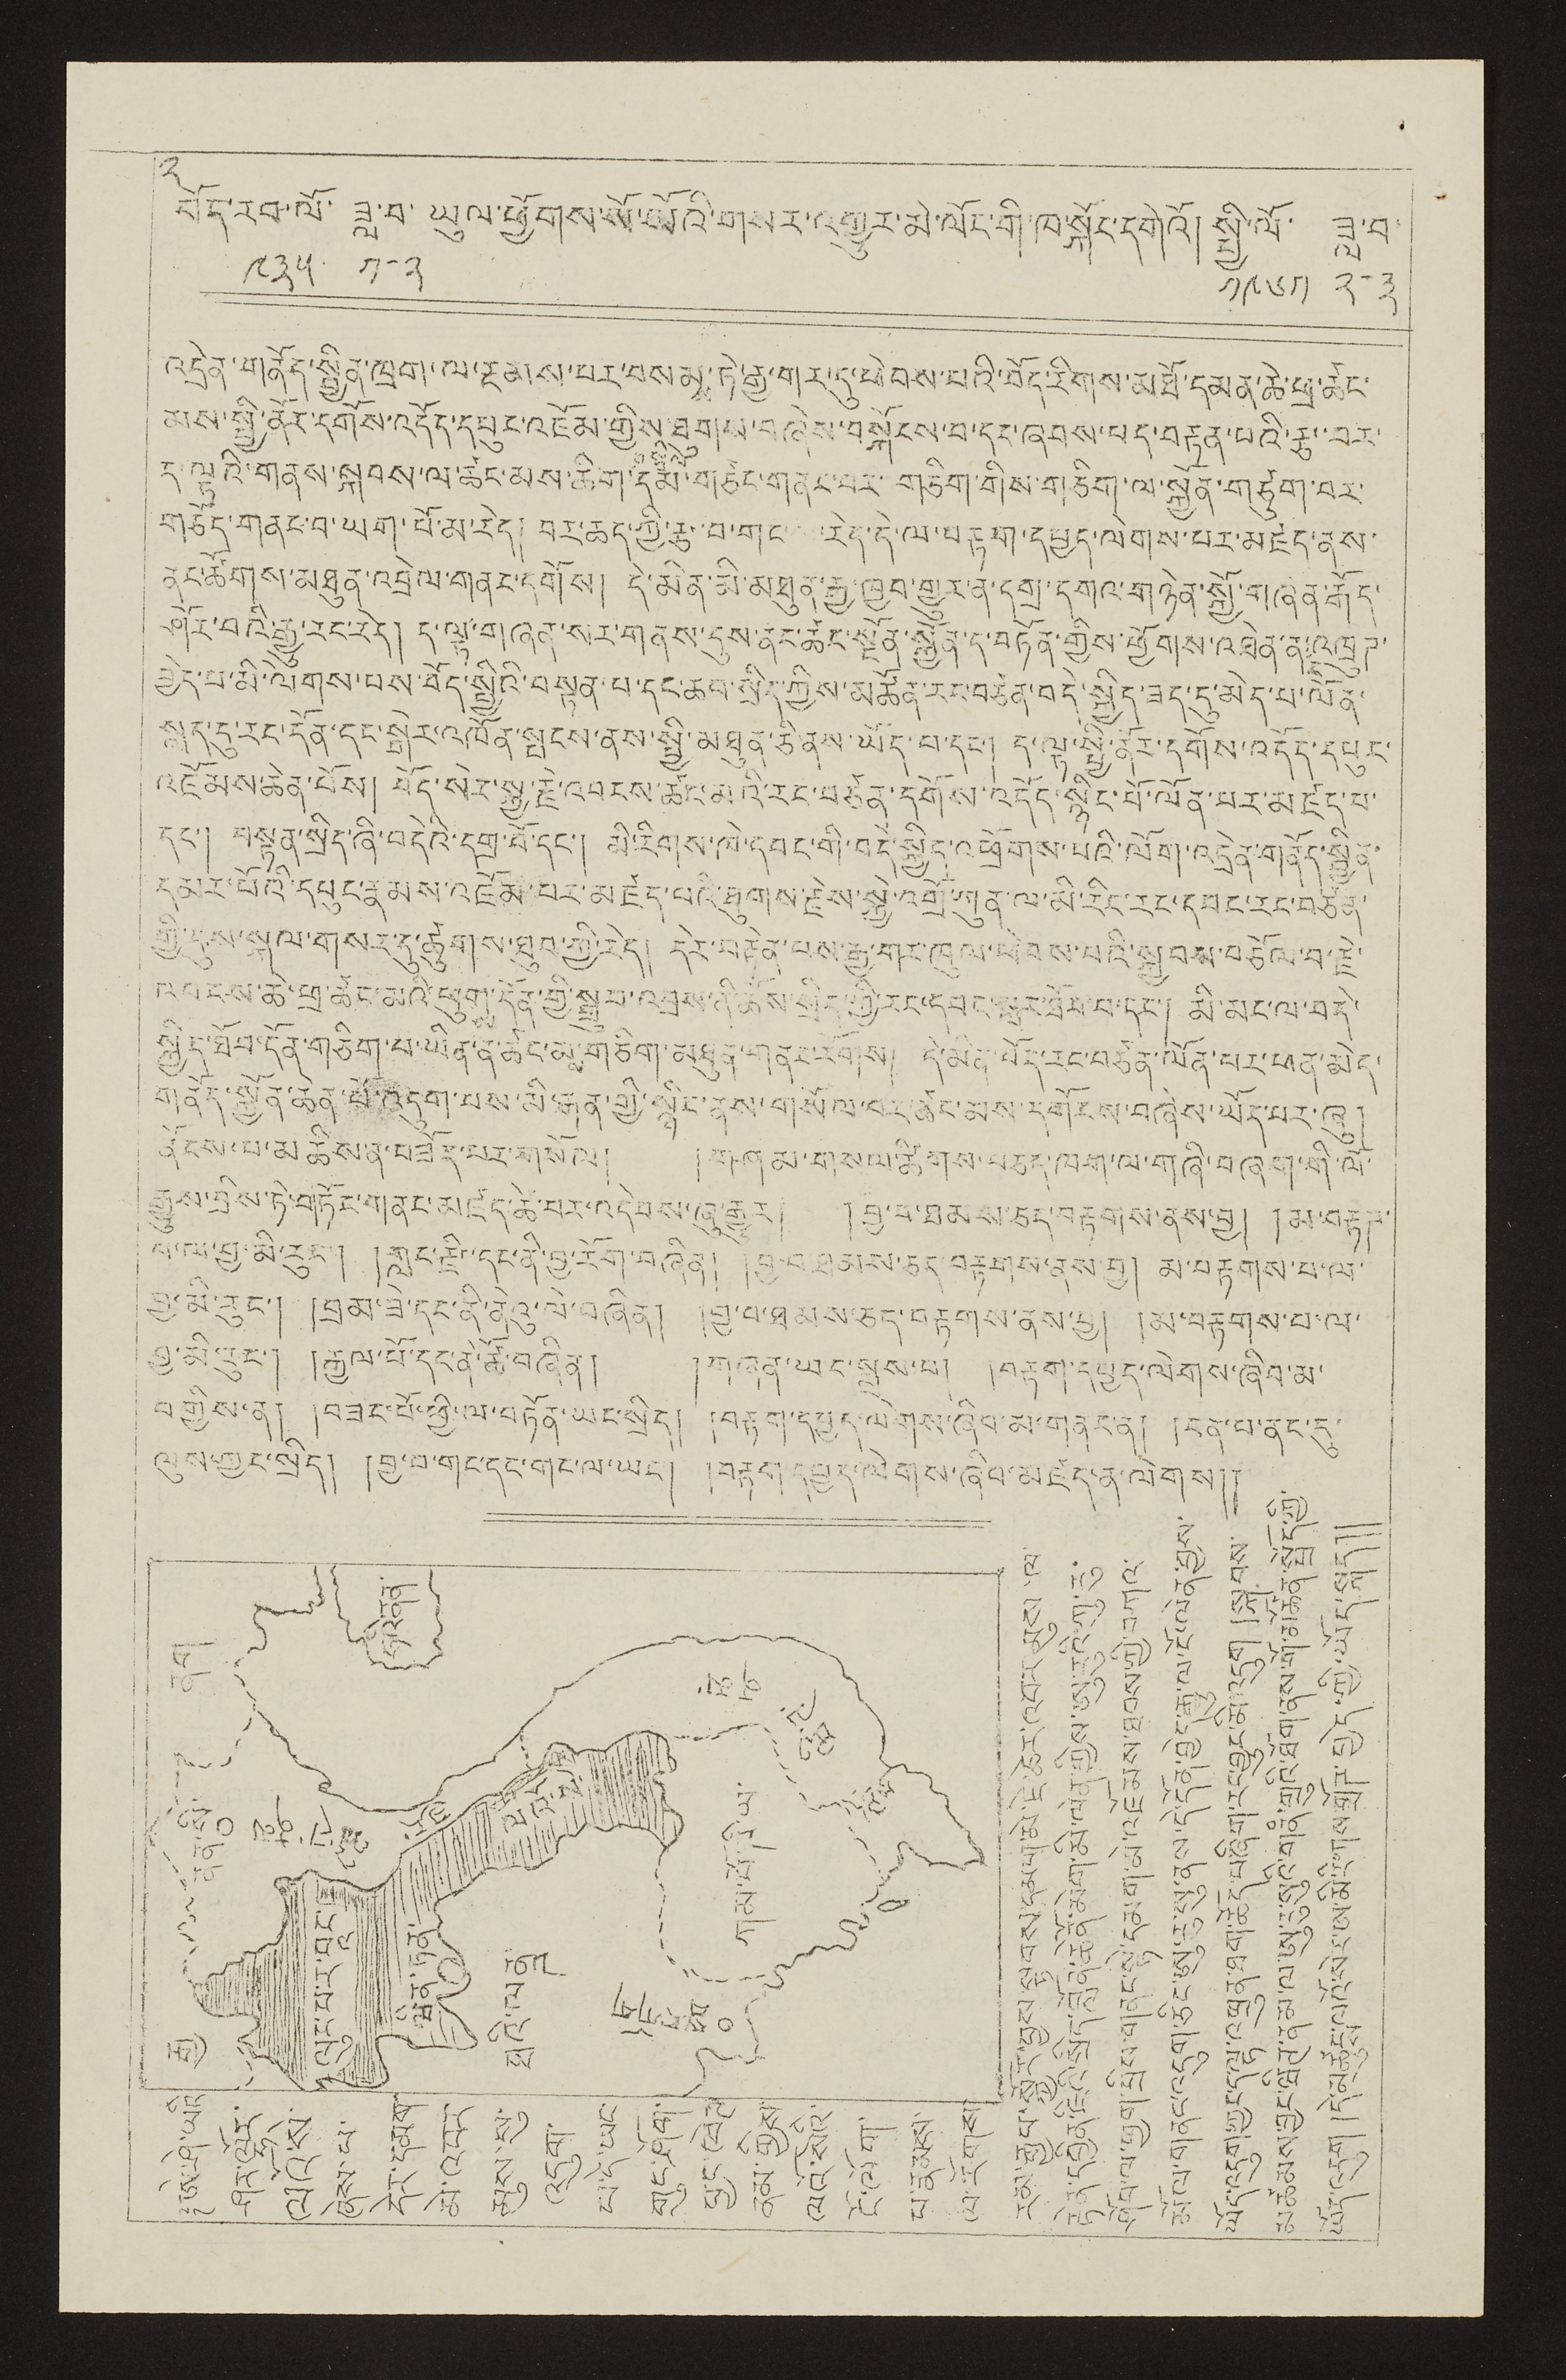༢
བོད་རབ་ལོ་
༩༣༥
ཟླ་བ་
༡-༢
ཡུལ་ཕྱོགས་སོ་སོའི་གསར་འགྱུར་མེ་ལོང་གི་ཁ་སྐོང་དགེའོ། སྤྱི་ལོ་
༡༩༦༡
ཟླ་བ་
༢-༣
འདྲེན་གནོད་སྦྱིན་ཁྲག་ལ་རྔམས་པར་བསམས་ཏེ་རྒྱ་གར་དུ་ཕེབས་པའི་བོད་རིགས་མཐོ་དམན་ཆེ་ཕྲ་ཚང་
མས་སྤྱི་ནོར་དགོས་འདོད་དཔུང་འཇོམ་གྱིས་ཐུགས་བཞེས་བསྐོངས་བ་དང་ཞབས་པད་བརྟན་པའི་རྩ་བར་
ད་ལྟའི་གནས་སྐབས་ལ་ཚང་མས་ཆིག་
བསྒྲིལ་
དམ་གཙང་གནང་བར་གཅིག་གིས་གཅིག་ལ་སྐྱོན་གཙུག་བར་
གཙོད་གནང་བ་ཡག་པོ་མ་རེད། བར་ཆད་ཀྱི་རྩ་བ་གང་ རེད་དེ་ལ་བརྟག་དཔྱད་ལེགས་པར་མཛད་ནས་
ནང་ཚོགས་མཐུན་འབྲེལ་གནང་དགོས། དེ་མིན་མི་མཐུན་རྒྱ་ཁྱབ་གྱུར་ན་དགྲ་དགའ་གཉེན་སྐྱོ་གཞན་རྒོད་
ཤོར་བའི་རྒྱུ་རང་རེད། ད་ལྟ་གཞན་སར་གནས་དུས་ནང་ཚང་སྔོན་སྐྱོན་ད་བཏོན་གྱིས་ཕྱོགས་འཐེན་ན་འཁྲུཊ་
བྱེད་པ་མི་ལེགས་པས་བོད་སྤྱིའི་བསྟན་པ་དང་ཆབ་སྲིད་ཀྱིས་མཚོན་རང་བཙན་བདེ་སྐྱིད་ཟད་དུ་མེད་པ་ལོན་
སླད་དུ་རང་དོན་དང་སྒེར་འཁོན་སྤངས་ནས་སྤྱི་མཐུན་ཅི་ནས་ཡོད་པ་དང་། ད་ལྟ་སྤྱི་ནོར་དགོས་འདོད་དཔུང་
འཇོམས་ཆེན་པོས། བོད་སེར་སྐྱ་རྗེ་འབངས་ཚང་མའི་རང་བཙན་དགོས་འདོད་སྙིང་པོ་ལོན་པར་མཛད་པ་
དང་། བསྟན་སྲིད་ཞི་བདེའི་དགྲ་པོ་དང་། མི་རིགས་ཁེ་དབང་གི་བདེ་སྐྱིད་འཕྲོགས་པའི་ལོག་འདྲེན་གནོད་སྦྱིན་
དམར་པོའི་དཔུང་རྣམས་འཇོམ་བར་མཛད་པའི་ཐུགས་རྗེས་སྐྱེ་འགྲོ་ཀུན་ལ་མི་རིང་དབང་རང་བཙན་
གྱི་དུས་སྐལ་གསར་དུ་ཚུགས་ཐུབ་ཀྱི་རེད། དེར་བརྟེན་པས་རྒྱ་གར་ཁུལ་ཕེབས་པའི་སྐྱབས་བཅོལ་བ་རྗེ་
འབངས་ཆེན་ཕྲ་ཚང་མའི་ཕྲུགས་དོན་གྱི་སྦྲུབ་འབྲས་ནི་ཆོས་སྲིད་གྱི་རང་དབང་སླར་ཐོབ་པ་དང་། མི་མང་ལ་བདེ་
སྐྱིད་ཐོབ་དོན་གཅིག་པ་ཡིན་ན་ཚང་མས་གཅིག་མཐུན་གནང་རོགས། དེ་མིན་བོད་རང་བཙན་ལོན་པར་ཕན་མེད་
གནོད་སྐྱོན་ཆེན་པོ་འདུག་པས་མི་རྒན་གྱི་སྙིང་ནས་གསོལ་བར་ཚང་མས་དགོངས་བཞེས་ཡོད་པར་ཞུ།
ནོངས་པ་མཆིས་ན་བཟོད་པར་གསོལ། །གཤམ་གསལ་ཚིགས་བཅད་ལག་ལ་གཞི་བཞག་གི་ལོ་
རྒྱུས་བྲིས་ཏེ་གཏོང་གནང་མཛད་ཚེ་བར་འདེབས་ཞུ་རྒྱུར། །བྱ་བ་ཐམས་ཅད་བརྟགས་ནས་བྱ། །མ་བརྟཊ་
པ་ལ་བྱ་མི་རུང་། །གླང་རྫིང་དང་ནི་བྱ་རོག་བཞིན། །བྱ་བ་ཐམས་ཅད་བརྟགས་ནས་བྱ། །མ་བརྟགས་པ་ལ་
བྱ་མི་རུང་། །བྲམ་ཟེ་དང་ནི་ནེའུ་ལེ་བཞིན། །བྱ་བ་ཐམས་ཅད་བརྟགས་ན་བྱ། མ་བརྟགས་པ་ལ་
བྱ་མི་རུང་། །རྒྱལ་པོ་དང་ནེ་ཚོ་བཞིན། །གཞན་ཡང་སླས་པ། །བརྟག་དཔྱད་ལེགས་ཞིབ་མ་
བགྱིས་ན། །བཟང་པོ་ཕྱི་ལ་བཏོན་ཡང་སྲིད། །བརྟག་དཔྱད་ལེགས་ཞིབ་མ་གནང་ན། །ངན་པ་ནང་དུ་
ལུས་གྱང་སྲིད། །བྱ་བ་གང་དང་གང་ལ་ཡང་། །བརྟག་དཔྱད་ལེགས་ཞིབ་མཛད་ན་ལེགས།།
ཧའི་ནན་
རྒྱ་ནག་
ལྷོ་ཝི་ཊ་ནམ་
ལའོ་སེ་
ཀམ་པོ་ཊི་ཡ་
བྱང་ཝི་ཊ་ནམ་
ནན་སི་
ལུང་པ་ར་བཱང་
ཝིན་ཏན་
ཐའི་ལནྜ་
སྦང་ཀོག་
༈ ཨེ་ཤེ་ཡའི་
ཤར་ལྷོར་
ལའོ་སེ་
ཞེས་པ་
དེར་དམག་
མེ་འབར་
མུས་སུ་
འདུག་
པ་དེ་ཡང་
གུང་ཤོག་
བྱང་ཝེཊ་
ནམ་གྱིས་
ལའོ་སེའི་
ངོ་ལོག་
པ་རྣམས་
ལ་རོགས་
རམ་རྒྱཔ་སྐྱོར་བྱས་སྟབས་དམག་མེ་ཇེ་ཆེར་འབར་མུས་ལ་
རྟེན་དབྱིན་ཇིའི་སྲིད་བློན་ཆེནོ་མེག་མི་ལེན་གྱིས་ཨུ་རུའི་ཀུ་རུ་
ཤོབ་ལ་ཕྱག་བྲིས་གནང་སྟེ་དམག་མེ་འཇོམས་ཐབས་ཀྱི་བཀའ་
མོལ་གནང་འདུག་ཅིང་ཨུ་རུ་སུ་ནས་དེ་དོན་བྱེད་རྒྱུ་ལ་ངོ་ལེན་བྱས་
ཡོད་འདུག་ཀྱང་ད་ལྟ་འཕྲུན་ཐག་ཆོད་པ་ཞིག་རང་བྱུང་མི་འདུག །སྐབས་
མཚམས་བྱང་ཝིཊ་ནམ་ལ་ཨུ་རུ་སུའི་གནཾ་གྲུའི་ཐོག་ནས་གོ་མཚོན་སྤྲོད་ཀྱི་
ཡོད་འདུག །དེ་མཚུངས་ལའོ་སེར་ཨ་མི་རི་ཀས་གྲོཊ་བྱེད་ཀྱི་ཡོད་སྐད།།
